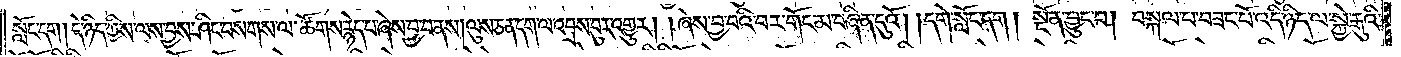སློང་དག། དེ་ཉིད་ཀྱིས་ལས་བྱས་ཤིང་བསགས་ལ་ཚོགས་རྙེད་པ་ཞེས་བྱ་བ་ནས། ལུས་ཅན་དག་ལ་འབྲས་བུར་འགྱུར། །ཞེས་བྱ་བའི་བར་གོང་མ་བཞིན་དུའོ། །དགེ་སློང་དག །སྔོན་བྱུང་བ། བསྐལ་པ་བཟང་པོ་འདི་ཉིད་ལ་སྐྱེ་རྒུའི་
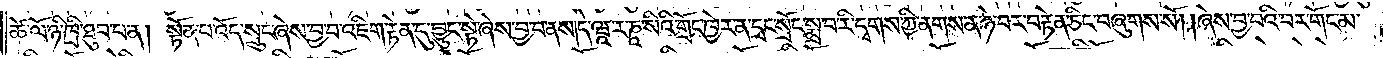ཚེ་ལོ་ཉི་ཁྲི་ཐུབ་པ་ན། སྟོན་པ་འོད་སྲུང་ཞེས་བྱ་བ་འཇིག་རྟེན་དུ་བྱུང་སྟེ་ཞེས་བྱ་བ་ནས། དེ་ཝཱ་ར་ཎཱ་སིའི་གྲོང་ཁྱེར་ན་དྲང་སྲོང་སྨྲ་བ་རི་དྭགས་ཀྱི་ནགས་ན་ཉེ་བར་བརྟེན་ཅིང་བཞུགས་སོ། །ཞེས་བྱ་བའི་བར་གོང་མ་
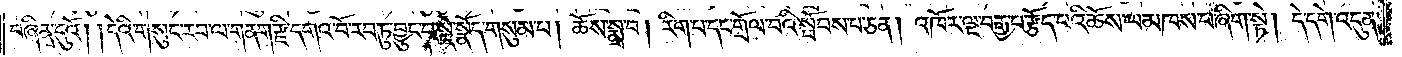བཞིན་དུའོ། །དེའི་གསུང་རབ་ལ་གནག་རྫི་དགའ་བོ་རབ་ཏུ་བྱུང་བ་སྡེ་སྣོད་གསུམ་པ། ཆོས་སྨྲ་བ། རིག་པ་དང་གྲོལ་བའི་སྤོབས་པ་ཅན། འཁོར་ལྔ་བརྒྱ་པ་རྩོད་པའི་ཆོས་ལ་མཁས་པ་ཞིག་སྟེ། དེ་དགེ་འདུན་
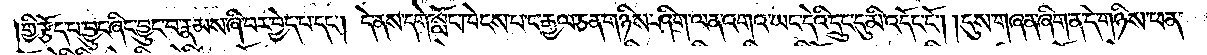གྱི་རྩོད་པ་བྱུང་ཞིང་བྱུང་བ་རྣམས་ཞི་བར་བྱེད་པ་དང༌། དེ་ནས་དགེ་སློང་ཁེངས་པ་ང་རྒྱལ་ཅན་གཉིས་ཤིག་ལན་འགའ་ཡང་དེའི་དྲུང་དུ་མི་འདོང་ངོ༌། །དུས་གཞན་ཞིག་ན་དེ་གཉིས་ཕན་
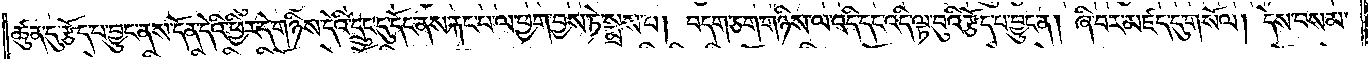ཚུན་དུ་རྩོད་པ་བྱུང་ནས་དོན་དེའི་ཕྱིར་དེ་གཉིས་དེའི་དྲུང་དུ་དོང་ནས་རྐང་པ་ལ་ཕྱག་བྱས་ཏེ་སྨྲས་པ། བདག་ཅག་གཉིས་ལ་འདི་དང་འདི་ལྟ་བུའི་རྩོད་པ་བྱུང་ན། ཞི་བར་མཛད་དུ་གསོལ། དེས་བསམ་
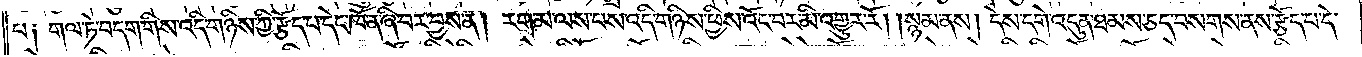བ༑ གལ་ཏེ་བདག་གིས་འདི་གཉིས་ཀྱི་རྩོད་པ་དེང་ཁོ་ན་ཞི་བར་བྱས་ན། རག་མ་ལས་པས་འདི་གཉིས་ཕྱིས་འོང་བར་མི་འགྱུར་རོ། །སྙམ་ནས། དེས་དགེ་འདུན་ཐམས་ཅད་བསགས་ནས་རྩོད་པ་དེ་
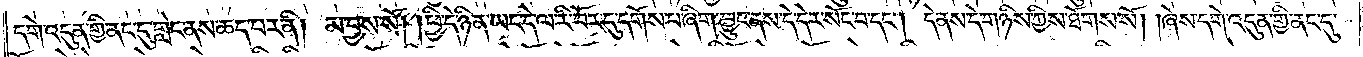དགེ་འདུན་གྱི་ནང་དུ་གླེང་ནས་ཆད་པར་ནི། མ་བྱས་སོ། །ཕྱི་དེ་ཉིན་ཡང་དེ་ལ་རི་བོར་དུ་དགོས་པ་ཞིག་བྱུང་ནས་དེ་དེར་སོང་བ་དང༌། དེ་ནས་དེ་གཉིས་ཀྱིས་ཐོགས་སོ། །ཞེས་དགེ་འདུན་གྱི་ནང་དུ་
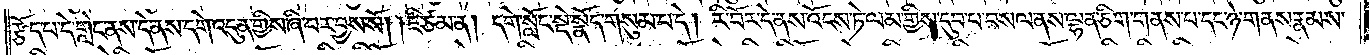རྩོད་པ་དེ་གླེང་ནས་དེ་ནས་དགེ་འདུན་གྱིས་ཞི་བར་བྱས་སོ། །ཇི་ཙམ་ན། དགེ་སློང་སྡེ་སྣོད་གསུམ་པ་དེ། རི་བོར་དེ་ནས་འོངས་ཏེ་ལམ་གྱིས་དུབ་པ་བསལ་ནས་ལྷན་ཅིག་གནས་པ་དང་ཉེ་གནས་རྣམས་
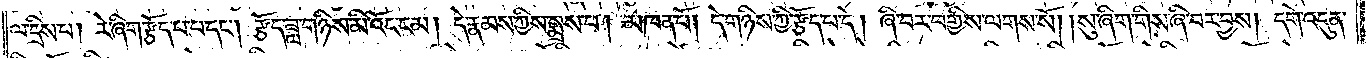ལ་དྲིས་པ། རེ་ཞིག་རྩོད་པ་བ་དང༌། རྩོད་ཟླ་གཉིས་མི་འོང་ངམ། དེ་རྣམས་ཀྱིས་སྨྲས་པ། མཁན་པོ། དེ་གཉིས་ཀྱི་རྩོད་པ་དེ། ཞི་བར་བགྱིས་ལགས་སོ། །སུ་ཞིག་གིས་ཞི་བར་བྱས། དགེ་འདུན་
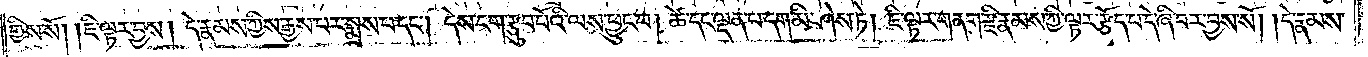གྱིས་སོ། །ཇི་ལྟར་བྱས། དེ་རྣམས་ཀྱིས་རྒྱས་པར་སྨྲས་པ་དང༌། དེས་ངག་རྩུབ་པོའི་ལས་ཕྱུང་བ། ཚེ་དང་ལྡན་པ་དག་མི་ཤེས་ཏེ། ཇི་ལྟར་གནག་རྫི་རྣམས་ཀྱི་ལྟར་རྩོད་པ་དེ་ཞི་བར་བྱས་སོ། །དེ་རྣམས་
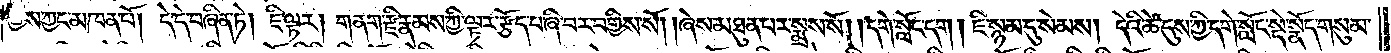ཀྱིས་ཀྱང་མཁན་པོ། དེ་དེ་བཞིན་ཏེ། ཇི་ལྟར། གནག་རྫི་རྣམས་ཀྱི་ལྟར་རྩོད་པ་ཞི་བར་བགྱིས་སོ། །ཞེས་མཐུན་པར་སྨྲས་སོ། །དགེ་སློང་དག །ཇི་སྙམ་དུ་སེམས། དེའི་ཚེ་དུས་ཀྱི་དགེ་སློང་སྡེ་སྣོད་གསུམ་
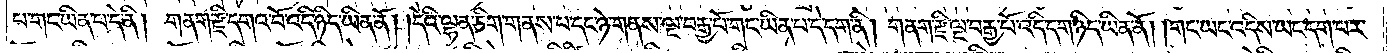པ་གང་ཡིན་པ་དེ་ནི། གནག་རྫི་དགའ་བོ་འདི་ཉིད་ཡིན་ནོ། །དེའི་ལྷན་ཅིག་གནས་པ་དང་ཉེ་གནས་ལྔ་བརྒྱ་པོ་གང་ཡིན་པ་དེ་དག་ནི། གནག་རྫི་ལྔ་བརྒྱ་པོ་འདི་དག་ཉིད་ཡིན་ནོ། །གང་ཡང་འདིས་ཡང་དག་པར་
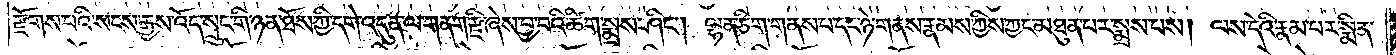རྫོགས་པའི་སངས་རྒྱས་འོད་སྲུང་གི་ཉན་ཐོས་ཀྱི་དགེ་འདུན་ལ་གནག་རྫི་ཞེས་བྱ་བའི་ཚིག་སྨྲས་ཤིང༌། ལྷན་ཅིག་གནས་པ་དང་ཉེ་གནས་རྣམས་ཀྱིས་ཀྱང་མཐུན་པར་སྨྲས་པས། ལས་དེའི་རྣམ་པར་སྨིན་
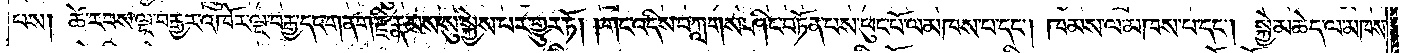པས། ཚེ་རབས་ལྔ་བརྒྱར་འཁོར་ལྔ་བརྒྱ་དང་གནག་རྫི་རྣམས་སུ་སྐྱེས་པར་གྱུར་ཏོ། །གང་འདིས་བཀླགས་ཤིང་བཏོན་པས་ཕུང་པོ་ལ་མཁས་པ་དང༌། ཁམས་ལ་མཁས་པ་དང༌། སྐྱེ་མཆེད་ལ་མཁས་
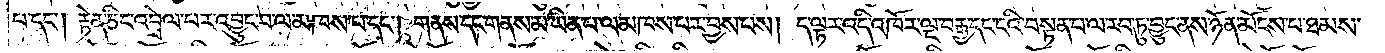པ་དང༌། རྟེན་ཅིང་འབྲེལ་བར་འབྱུང་བ་ལ་མཁས་པ་དང༌། གནས་དང་གནས་མ་ཡིན་པ་ལ་མཁས་པར་བྱས་པས། ད་ལྟར་འདི་འཁོར་ལྔ་བརྒྱ་དང་ངའི་བསྟན་པ་ལ་རབ་ཏུ་བྱུང་ནས་ཉོན་མོངས་པ་ཐམས་
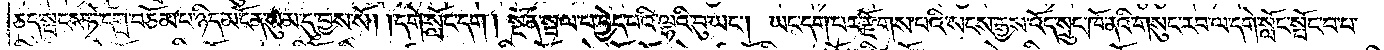ཅད་སྤངས་ཏེ་དགྲ་བཅོམ་པ་ཉིད་མངོན་སུམ་དུ་བྱས་སོ། །དགེ་སློང་དག། སྔོན་སྦལ་པ་བྱེད་པའི་ལྷའི་བུ་ཡང༌། ཡང་དག་པར་རྫོགས་པའི་སངས་རྒྱས་འོད་སྲུང་ཁོ་ནའི་གསུང་རབ་ལ་དགེ་སློང་སྤོང་བ་པ་
